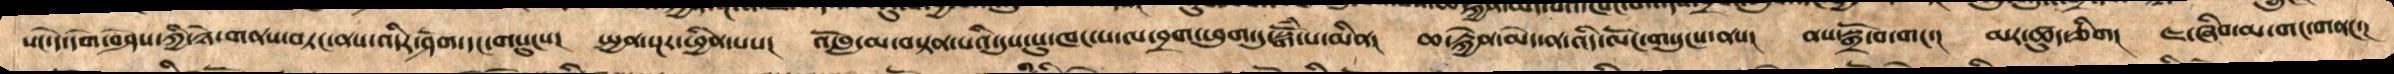སང་དེ་དགེ་བཤེས་ཀྱི་ཉེ་གནས་བཏང་ནས་འདིར་ཤོག་དང་གསུངས་།  སྤྱན་སྔར་ཕྱིན་པས།   འོ་བླ་མ་བསྟན་པའི་དུས་སུ་ཁང་པ་ལ་བྲག་ཕུག་དུ་སྒོཾ་པ་མིན།   ཆ་རྐྱེན་མེད་ན་འདི་ལོང་གསུངས་ནས།   ནས་སྒྲོ་བ་གང་།   མར་ཚུད་ཅིག།   ཇ་ཞིབ་མ་གང་གནང་།
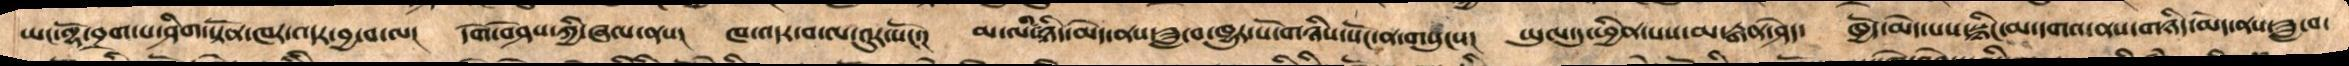ཡང་ལྷོ་བྲག་པ་ཤིག་སྟོན་ཁར་འདར་བྱ་བ་ལ།  དགེ་བཤེས་ཀྱི་ཞལ་ནས།   ཁ་འདར་བ་ལ་འུར་སོང་།   མ་ལ་གཉིད་མེད་ནས་ཟླ་བ་ཁྱུར་པོ་གཉིས་སོང་ན་གསུངས།   ཡུལ་དུ་ཕྱིན་པས་མ་རྒན་ཤེད།  ཁྱོད་མེད་པས་སྙིང་མ་དགའ་ནས་གཉིད་མེད་ནས་ཟླ་བ་
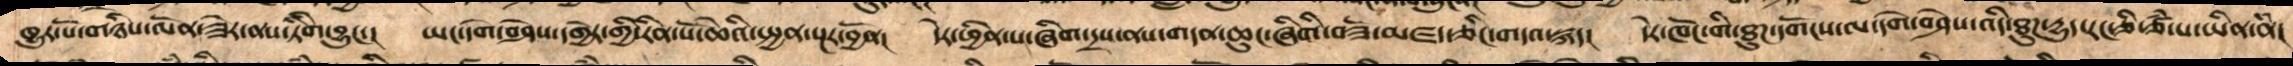ཁྱུར་པོ་གཉིས་ལོན་ཟེར་ནས་ཏིགི་བྱུང་།    ཡང་དགེ་བཤེས་དགྱེར་གྱི་རིན་པོ་ཆེའི་སྤྱན་སྔར་བྱོན།   དེར་ཕྱིན་པ་ཞིག་དྲས་ནས་གདན་ཆུང་ཞིགི་བཟོ་མཛད་ཅིང་གདའ་སྐད།   དེར་ཁོང་གི་ཐུཌ་དགོངས་ལ་དགེ་བཤེས་འདི་ཐུཌ་དྱུད་རང་ཅི་ཙཾ་པ་ཡིན་ནཾ།
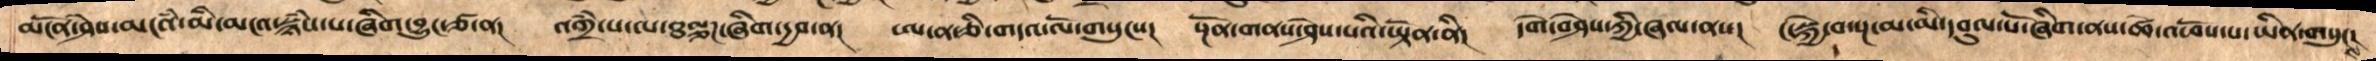མངོན་ཤེས་མངའཾ་མི་མངའ་སྙཾས་པ་ཞིག་བྱུང་ཙ་ན། འགྲཾ་པ་ལ་ཐལྕགཌ་ཞིག་དྱབ་ན། ཨ་ན་ཅི་གདའ་ལོ་གསུངས། སྔོན་གནས་ཤེས་པའི་ཡྟོན་ནི། དགེ་བཤེས་ཀྱི་ཞལ་ནས། ང་སྐྱེ་བ་སྔ་མ་མི་དབུལ་པོ་ཞིག་ནས་ཚེ་འཕོས་པ་ཡིན་གསུངས།
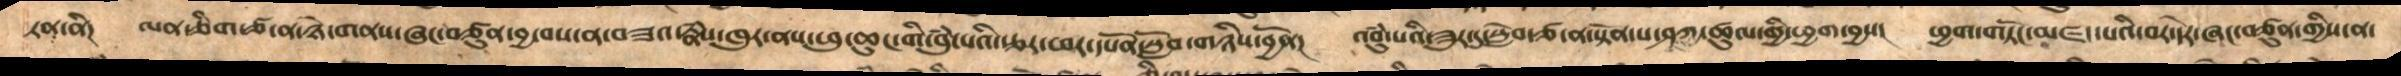ཏན་ནི།  ལན་ཅིག་ཙ་ན་ཉེ་གནས་ཞང་བཙུན་བྱ་བས་ན་བཟའ་རྣཾས་ཁུར་ནས་ཕུ་ཆུང་གི་བུཾ་པའི་རྩར་ཕར་དཔོན་སློབ་གཉིས་བྱོན།   འབུཾ་པའི་ཟུར་དུ་སླེབ་ཙ་ན་སྟོན་པ་ཤཱཀྱ་ཚུལ་གྱི་ཕྱག་བྱས།   ཕྱག་གཏོང་མཛད་པའི་བར་དེར་ཞང་བཙུན་གྱིས་ན་
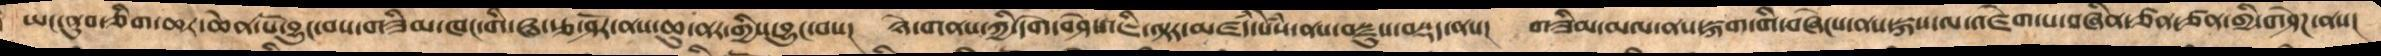ཡང་ནུབ་ཅིག་ཆར་ཆེན་པོ་བྱུང་བས་གཟིམ་ཁང་གི་ཝ་རྩ་ཤོར་ནས་ཆུ་ནར་གྱིས་བྱུང་བས།  ཉེ་གནས་ཀྱི་དགེ་བཤེས་ཇི་ལྟར་མཛདཾ་སེཾས་ནས་བསྫུས་བསྡད་ནས།  གཟིམ་མལ་ནས་སྐག་གི་བཞེངས་ནས་སྐས་ལ་འཛེག་པ་བཞིན་ཙན་ཙན་གྱི་གཤེཌ་ནས།
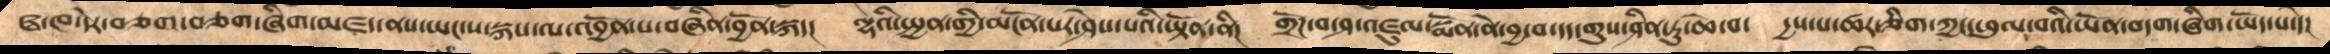ཝ་ཁ་དེར་བཅག་བཅག་ཞིག་མཛད་ནས་ཡང་ས་སྐས་ལ་འབྱོན་པ་བཞིན་བྱོན་སྐད།  ལྷའི་སྤྱན་གྱི་མངོན་པར་ཤེས་པའི་ཡྟོན་ནི།  གྲོཌ་བ་ཤ་འཛུལ་སྨོན་ནེ་བྱ་བ་དད་གུས་ཤིན་ཏུ་ཆེ་བ།  དྱས་པ་ཚར་ཅིག་ཀྱང་ཕུལ་བའི་ཡོན་བདག་ཞིག་ཡོད་པ་དེ།
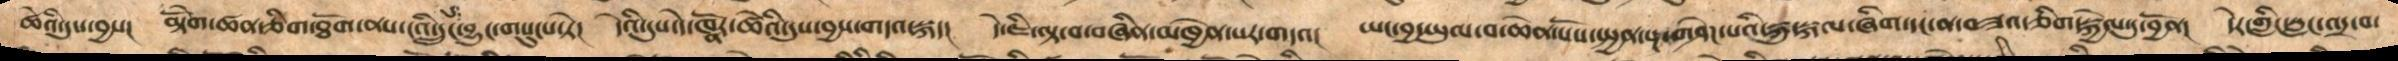ཚེའི་དུས་བྱས། མྟོེག་ཚན་ཅིག་ཐོག་ནས་ངའི་དྲུང་དུ་བྱུང་གསུངས་ཏེ། དེའི་དུས་ཁོ་ནར་ཚེའི་དུས་བྱས་གདའ་སྐད། དེ་ཇི་ལྟ་བ་བཞིན་མཁྱེན་པར་གདའ། ཡང་བྱ་ཡུལ་བ་ཆེན་པོས་སྤྱན་སྔ་གཤེཌ་པའི་སྐུ་སྐལ་ཞིག་དང་ན་བཟའ་ཅིག་སྐྱེལ་དུ་བྱོན། དེར་གླིང་སླང་འདྲ་བ་
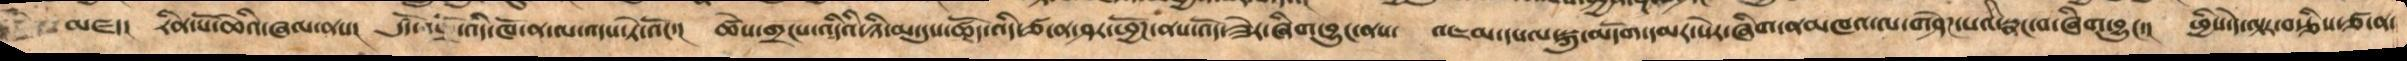མཛད་།   རིན་པོ་ཆེའི་ཞལ་ནས།   དུས་ཚོད་འདི་ཁོ་ན་ལ་འདས་ཏེ་འོང་།   ཚེས་གྲངས་འདིའི་ཉི་མ་དུས་ཚོད་འདི་ཙ་ན་ཤར་ཕྱོཌ་ནས་འོད་ཟེར་ཞིག་བྱུང་ནས།   འཇམ་དཔལ་སྐུ་མདོག་དམར་སེར་ཞིག་ནམཁའ་ལ་གཤེཌ་པའི་སྣང་བ་ཞིག་བྱུང་།  ཕྱིས་དེ་ལྟར་བརྩིས་ཙ་ན་
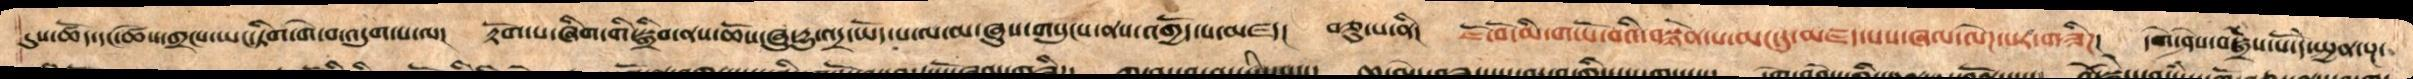དུས་ཚོད་དང་ཚེས་གྲངས་ཡང་ཏིག་གེ་བར་འདུག་པ་ལ། རྟོག་པ་ཞིག་གི་སྒྲིབ་ནས་ཆོས་ཞུ་དྱུ་འདྲ་ཡོད་པ་ལ་མ་ཞུས་གསུངས་ནས་འགྱོད་པ་མཛད། བཅུ་པ་ནི། ཇོ་བོ་མི་གཡོ་བའི་བསྙེན་པ་མང་དུ་མཛད་པས་ཞལ་ལེཌ་པར་གཟིཌ། དགེ་ཤེས་བསྒྲེས་པོ་དེ་སྤྱན་སྔ་
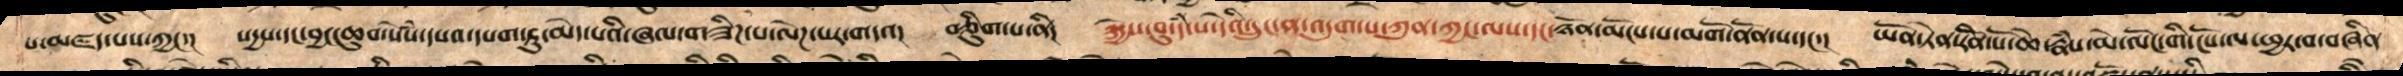པ་མཛད་པས་ཀྱང་   སདྱས་དང་བྱང་ཆུབ་སེསཾ་དཔའ་དཔག་ཏུ་མེད་པའི་ཞལ་གཟིཌ་པ་ལེཌ་པར་གདའ།   བཅིུག་པ་ནི།   སྐྱེས་བུ་དཾ་པ་དེའི་དྲུང་ན་འདུག་པ་ཀུན་ཀྱང་ལས་དང་ཉོན་མོངས་པ་མགོ་ནོན་པ་དང་།   ཡོན་ཏན་རིོན་པོ་ཆེ་རྣཾས་མེ་ལོང་གི་ངོས་ལ་ཕྱར་བ་བཞིན་
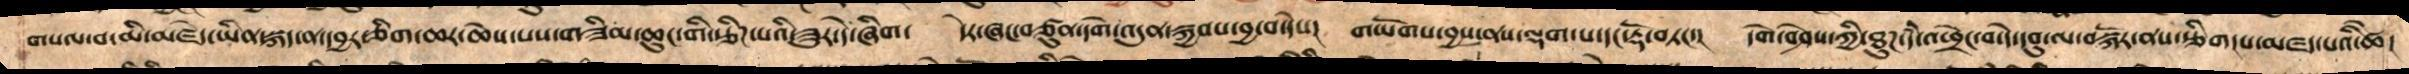གསལ་བ་མི་མཛེད་ཡིན་སྐད་ན་དབྱར་ཅིག་ཆར་ཆེས་པས་གཟིམ་ཆུང་གི་རྩིཌ་པའི་ཟུར་དེ་ཞིག་   དེར་ཞང་བཙུན་དགེ་འདུན་སྐྱབས་བྱ་བ་་དེས།  གཡོགས་བྱས་ནས་ལྡག་པ་དང་རྡོ་བཏང་།   དགེ་བཤེས་ཀྱི་ཐུཌ་དཾ་འཕྲེང་བ་དེ་དབུ་ལ་བསྐོར་ནས་རྩིག་པ་མཛད་པའི་ཚེ་
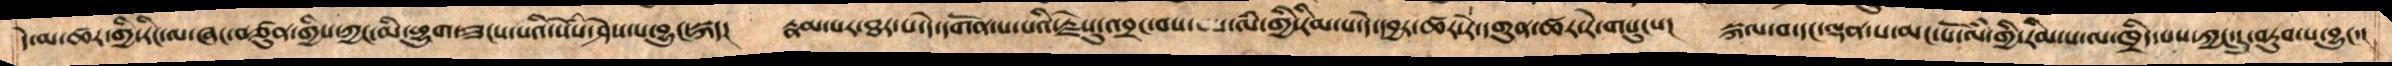དེ་མ་ཚར་གྱི་རིང་ལ་ཞང་བཙུན་གྱིས་ཀྱང་མི་ཕྱུག་བཟངས་པའི་སེསཾ་ཤེས་པ་བྱུང་སྐད།   རྣམ་པར་ཐར་པ་དེ་དགོན་པ་པའི་རྗེསུ་འབྲང་བས  ་ལཾ་གྱི་རིམ་པ་དེ་དབྱར་ཚར་རེ་དགུན་ཚར་རེ་གསུངས།  སྐལ་བ་དང་ལྡན་པ་མང་པོ་ལཾ་གྱི་རིམ་པ་ལ་ཁྲིད་པས་ཀྱང་དུ་བཏུབ་པ་བྱུང་།
